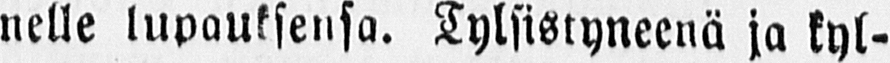nelle lupauksensa. Tylsistyneenä ja kyl-
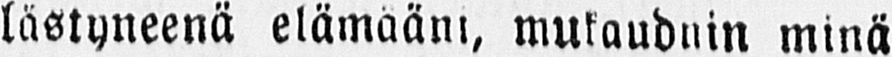lästyneenä elämääni, mukauduin minä
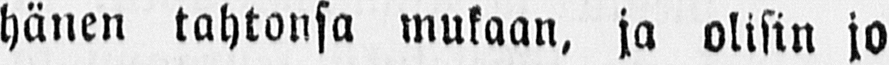hänen tahtonsa mukaan, ja olisin jo
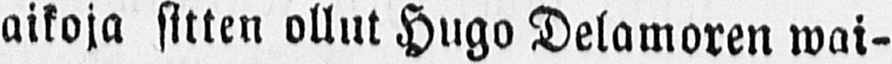aikoja sitten ollut Hugo Delamoren wai-
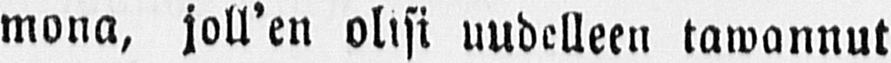mona, joll'en olisi uudelleen tawannut
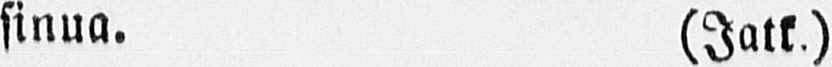sinua. (Jatk.)
